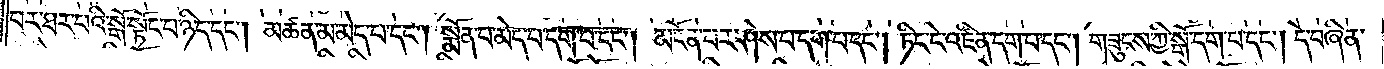པར་ཐར་པའི་སྒོ་སྟོང་པ་ཉིད་དང༌། མཚན་མ་མེད་པ་དང༌། སྨོན་པ་མེད་པ་དག་པ་དང༌། མངོན་པར་ཤེས་པ་དག་པ་དང༌། ཏིང་ངེ་འཛིན་དག་པ་དང༌། གཟུངས་ཀྱི་སྒོ་དག་པ་དང༌། དེ་བཞིན་
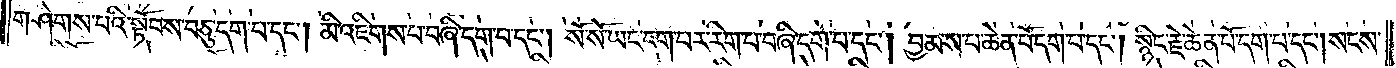གཤེགས་པའི་སྟོབས་བཅུ་དག་པ་དང༌། མི་འཇིགས་པ་བཞི་དག་པ་དང༌། སོ་སོ་ཡང་དག་པར་རིག་པ་བཞི་དག་པ་དང༌། བྱམས་པ་ཆེན་པོ་དག་པ་དང༌། སྙིང་རྗེ་ཆེན་པོ་དག་པ་དང༌། སངས་
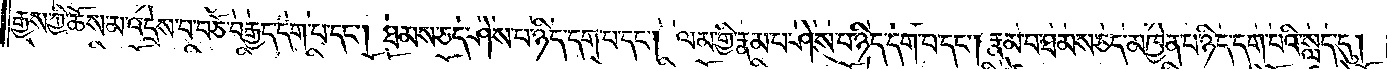རྒྱས་ཀྱི་ཆོས་མ་འདྲེས་པ་བཅོ་བརྒྱད་དག་པ་དང༌། ཐམས་ཅད་ཤེས་པ་ཉིད་དག་པ་དང༌། ལམ་གྱི་རྣམ་པ་ཤེས་པ་ཉིད་དག་པ་དང༌། རྣམ་པ་ཐམས་ཅད་མཁྱེན་པ་ཉིད་དག་པའི་སླད་དུ།
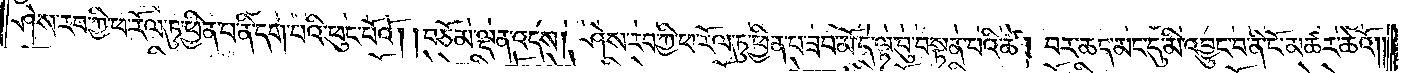ཤེས་རབ་ཀྱི་ཕ་རོལ་ཏུ་ཕྱིན་པ་ནི་དག་པའི་ཕུང་པོའོ། །བཅོམ་ལྡན་འདས། ཤེས་རབ་ཀྱི་ཕ་རོལ་ཏུ་ཕྱིན་པ་ཟབ་མོད་ལྟ་བུ་བསྟན་པའི་ཚེ། བར་ཆད་མང་དུ་མི་འབྱུང་བ་ནི་ངོ་མཚར་ཆེའོ། །
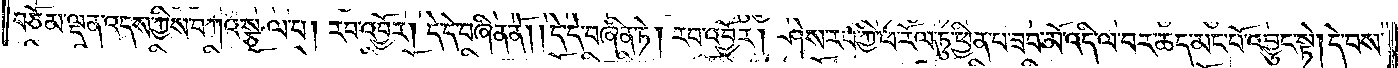བཅོམ་ལྡན་འདས་ཀྱིས་བཀའ་སྩལ་པ། རབ་འབྱོར། དེ་དེ་བཞིན་ནོ། །དེ་དེ་བཞིན་ཏེ། རབ་འབྱོར། ཤེས་རབ་ཀྱི་ཕ་རོལ་ཏུ་ཕྱིན་པ་ཟབ་མོ་འདི་ལ་བར་ཆད་མང་པོ་འབྱུང་སྟེ། དེ་བས་
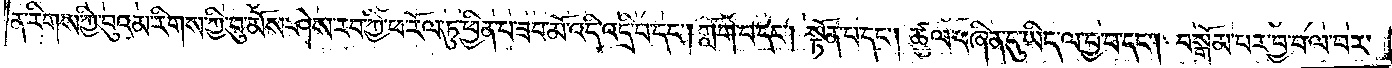ན་རིགས་ཀྱི་བུ་འམ་རིགས་ཀྱི་བུ་མོས་ཤེས་རབ་ཀྱི་ཕ་རོལ་ཏུ་ཕྱིན་པ་ཟབ་མོ་འདི་འདྲི་བ་དང༌། ཀློག་པ་དང༌། སྟོན་པ་དང༌། ཚུལ་བཞིན་དུ་ཡིད་ལ་བྱ་བ་དང༌། བསྒོམ་པར་བྱ་བ་ལ་བར་
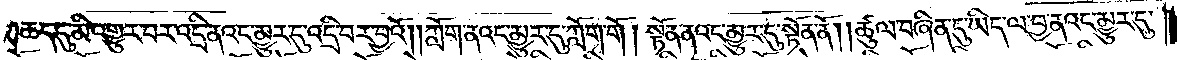ཆད་དུ་མི་འགྱུར་བར་འདྲི་ནའང་མྱུར་དུ་འདྲི་བར་བྱའོ། །ཀློག་ནའང་མྱུར་དུ་ཀློག་གོ། །སྟོན་ནའང་མྱུར་དུ་སྟོན་ནོ། །ཚུལ་བཞིན་དུ་ཡིད་ལ་བྱ་ནའང་མྱུར་དུ་
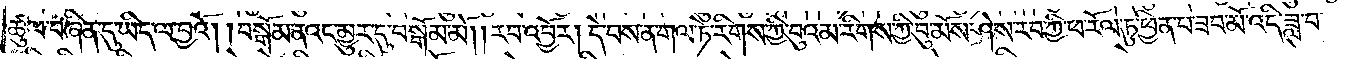ཚུལ་བཞིན་དུ་ཡིད་ལ་བྱའོ། །བསྒོམ་ནའང་མྱུར་དུ་བསྒོམ་མོ། །རབ་འབྱོར། དེ་བས་ན་གལ་ཏེ་རིགས་ཀྱི་བུ་འམ་རིགས་ཀྱི་བུ་མོས་ཤེས་རབ་ཀྱི་ཕ་རོལ་ཏུ་ཕྱིན་པ་ཟབ་མོ་འདི་ཟླ་བ་
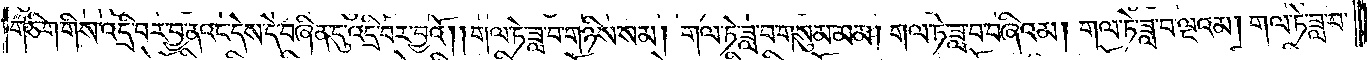གཅིག་གིས་འདྲི་བར་བྱ་ནའང་དེས་དེ་བཞིན་དུ་འདྲི་བར་བྱའོ། །གལ་ཏེ་ཟླ་བ་གཉིས་སམ། གལ་ཏེ་ཟླ་བ་གསུམ་མམ། གལ་ཏེ་ཟླ་བ་བཞིའམ། གལ་ཏེ་ཟླ་བ་ལྔའམ། གལ་ཏེ་ཟླ་བ་
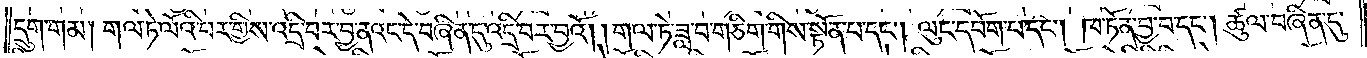དྲུག་གམ། གལ་ཏེ་ལོའི་བར་གྱིས་འདྲི་བར་བྱ་ནའང་དེ་བཞིན་དུ་འདྲི་བར་བྱའོ། །གལ་ཏེ་ཟླ་བ་གཅིག་གིས་སྟོན་པ་དང༌། ལུང་དབོག་པ་དང༌། ཁ་ཏོན་བྱ་བ་དང༌། ཚུལ་བཞིན་དུ་
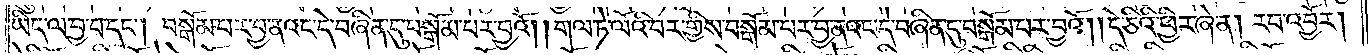ཡིད་ལ་བྱ་བ་དང༌། བསྒོམ་པར་བྱ་ནའང་དེ་བཞིན་དུ་བསྒོམ་པར་བྱའོ། །གལ་ཏེ་ལོའི་བར་གྱིས་བསྒོམ་པར་བྱ་ནའང་དེ་བཞིན་དུ་བསྒོམ་པར་བྱའོ། །དེ་ཅིའི་ཕྱིར་ཞེ་ན། རབ་འབྱོར།
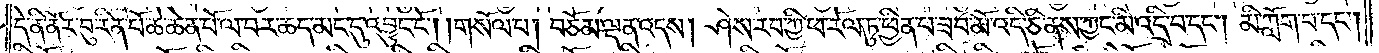དེ་ནི་ནོར་བུ་རིན་པོ་ཆེ་ཆེན་པོ་ལ་བར་ཆད་མང་དུ་འབྱུང་ངོ༌། །གསོལ་པ། བཅོམ་ལྡན་འདས། ཤེས་རབ་ཀྱི་ཕ་རོལ་ཏུ་ཕྱིན་པ་ཟབ་མོ་འདི་ཅི་ནས་ཀྱང་མི་འདྲི་བ་དང༌། མི་ཀློག་པ་དང༌།
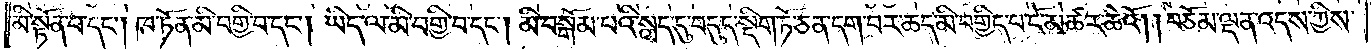མི་སྟོན་པ་དང༌། ཁ་ཏོན་མི་བགྱི་བ་དང༌། ཡིད་ལ་མི་བགྱི་བ་དང༌། མི་བསྒོམ་པའི་སླད་དུ་བདུད་སྡིག་ཏོ་ཅན་དག་བར་ཆད་མི་བགྱིད་པ་ངོ་མཚར་ཆེའོ། །བཅོམ་ལྡན་འདས་ཀྱིས་
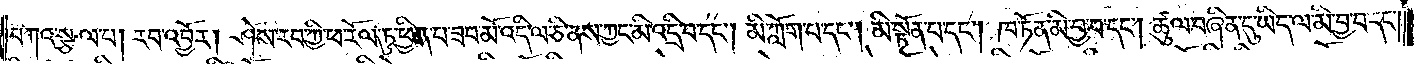བཀའ་སྩལ་པ། རབ་འབྱོར། ཤེས་རབ་ཀྱི་ཕ་རོལ་ཏུ་ཕྱིན་པ་ཟབ་མོ་འདི་ལ་ཅི་ནས་ཀྱང་མི་འདྲི་བ་དང༌། མི་ཀློག་པ་དང༌། མི་སྟོན་པ་དང༌། ཁ་ཏོན་མི་བྱ་བ་དང༌། ཚུལ་བཞིན་དུ་ཡིད་ལ་མི་བྱ་བ་དང༌།
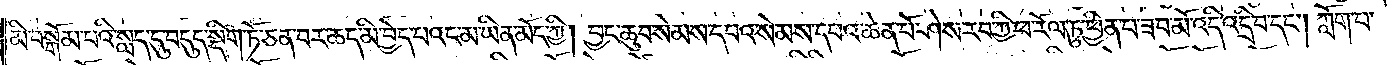མི་བསྒོམ་པའི་སླད་དུ་བདུད་སྡིག་ཏོ་ཅན་བར་ཆད་མི་བྱེད་པའང་མ་ཡིན་མོད་ཀྱི། བྱང་ཆུབ་སེམས་དཔའ་སེམས་དཔའ་ཆེན་པོ་ཤེས་རབ་ཀྱི་ཕ་རོལ་ཏུ་ཕྱིན་པ་ཟབ་མོ་འདི་འདྲི་བ་དང༌། ཀློག་པ་
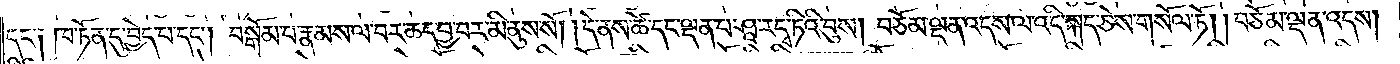དང་༑ ཁ་ཏོན་དུ་བྱེད་པ་དང༌། བསྒོམ་པ་རྣམས་ལ་བར་ཆད་བྱ་བར་མི་ནུས་སོ། །དེ་ནས་ཚེ་དང་ལྡན་པ་ཤཱ་ར་དྭ་ཏིའི་བུས། བཅོམ་ལྡན་འདས་ལ་འདི་སྐད་ཅེས་གསོལ་ཏོ། །བཅོམ་ལྡན་འདས།
